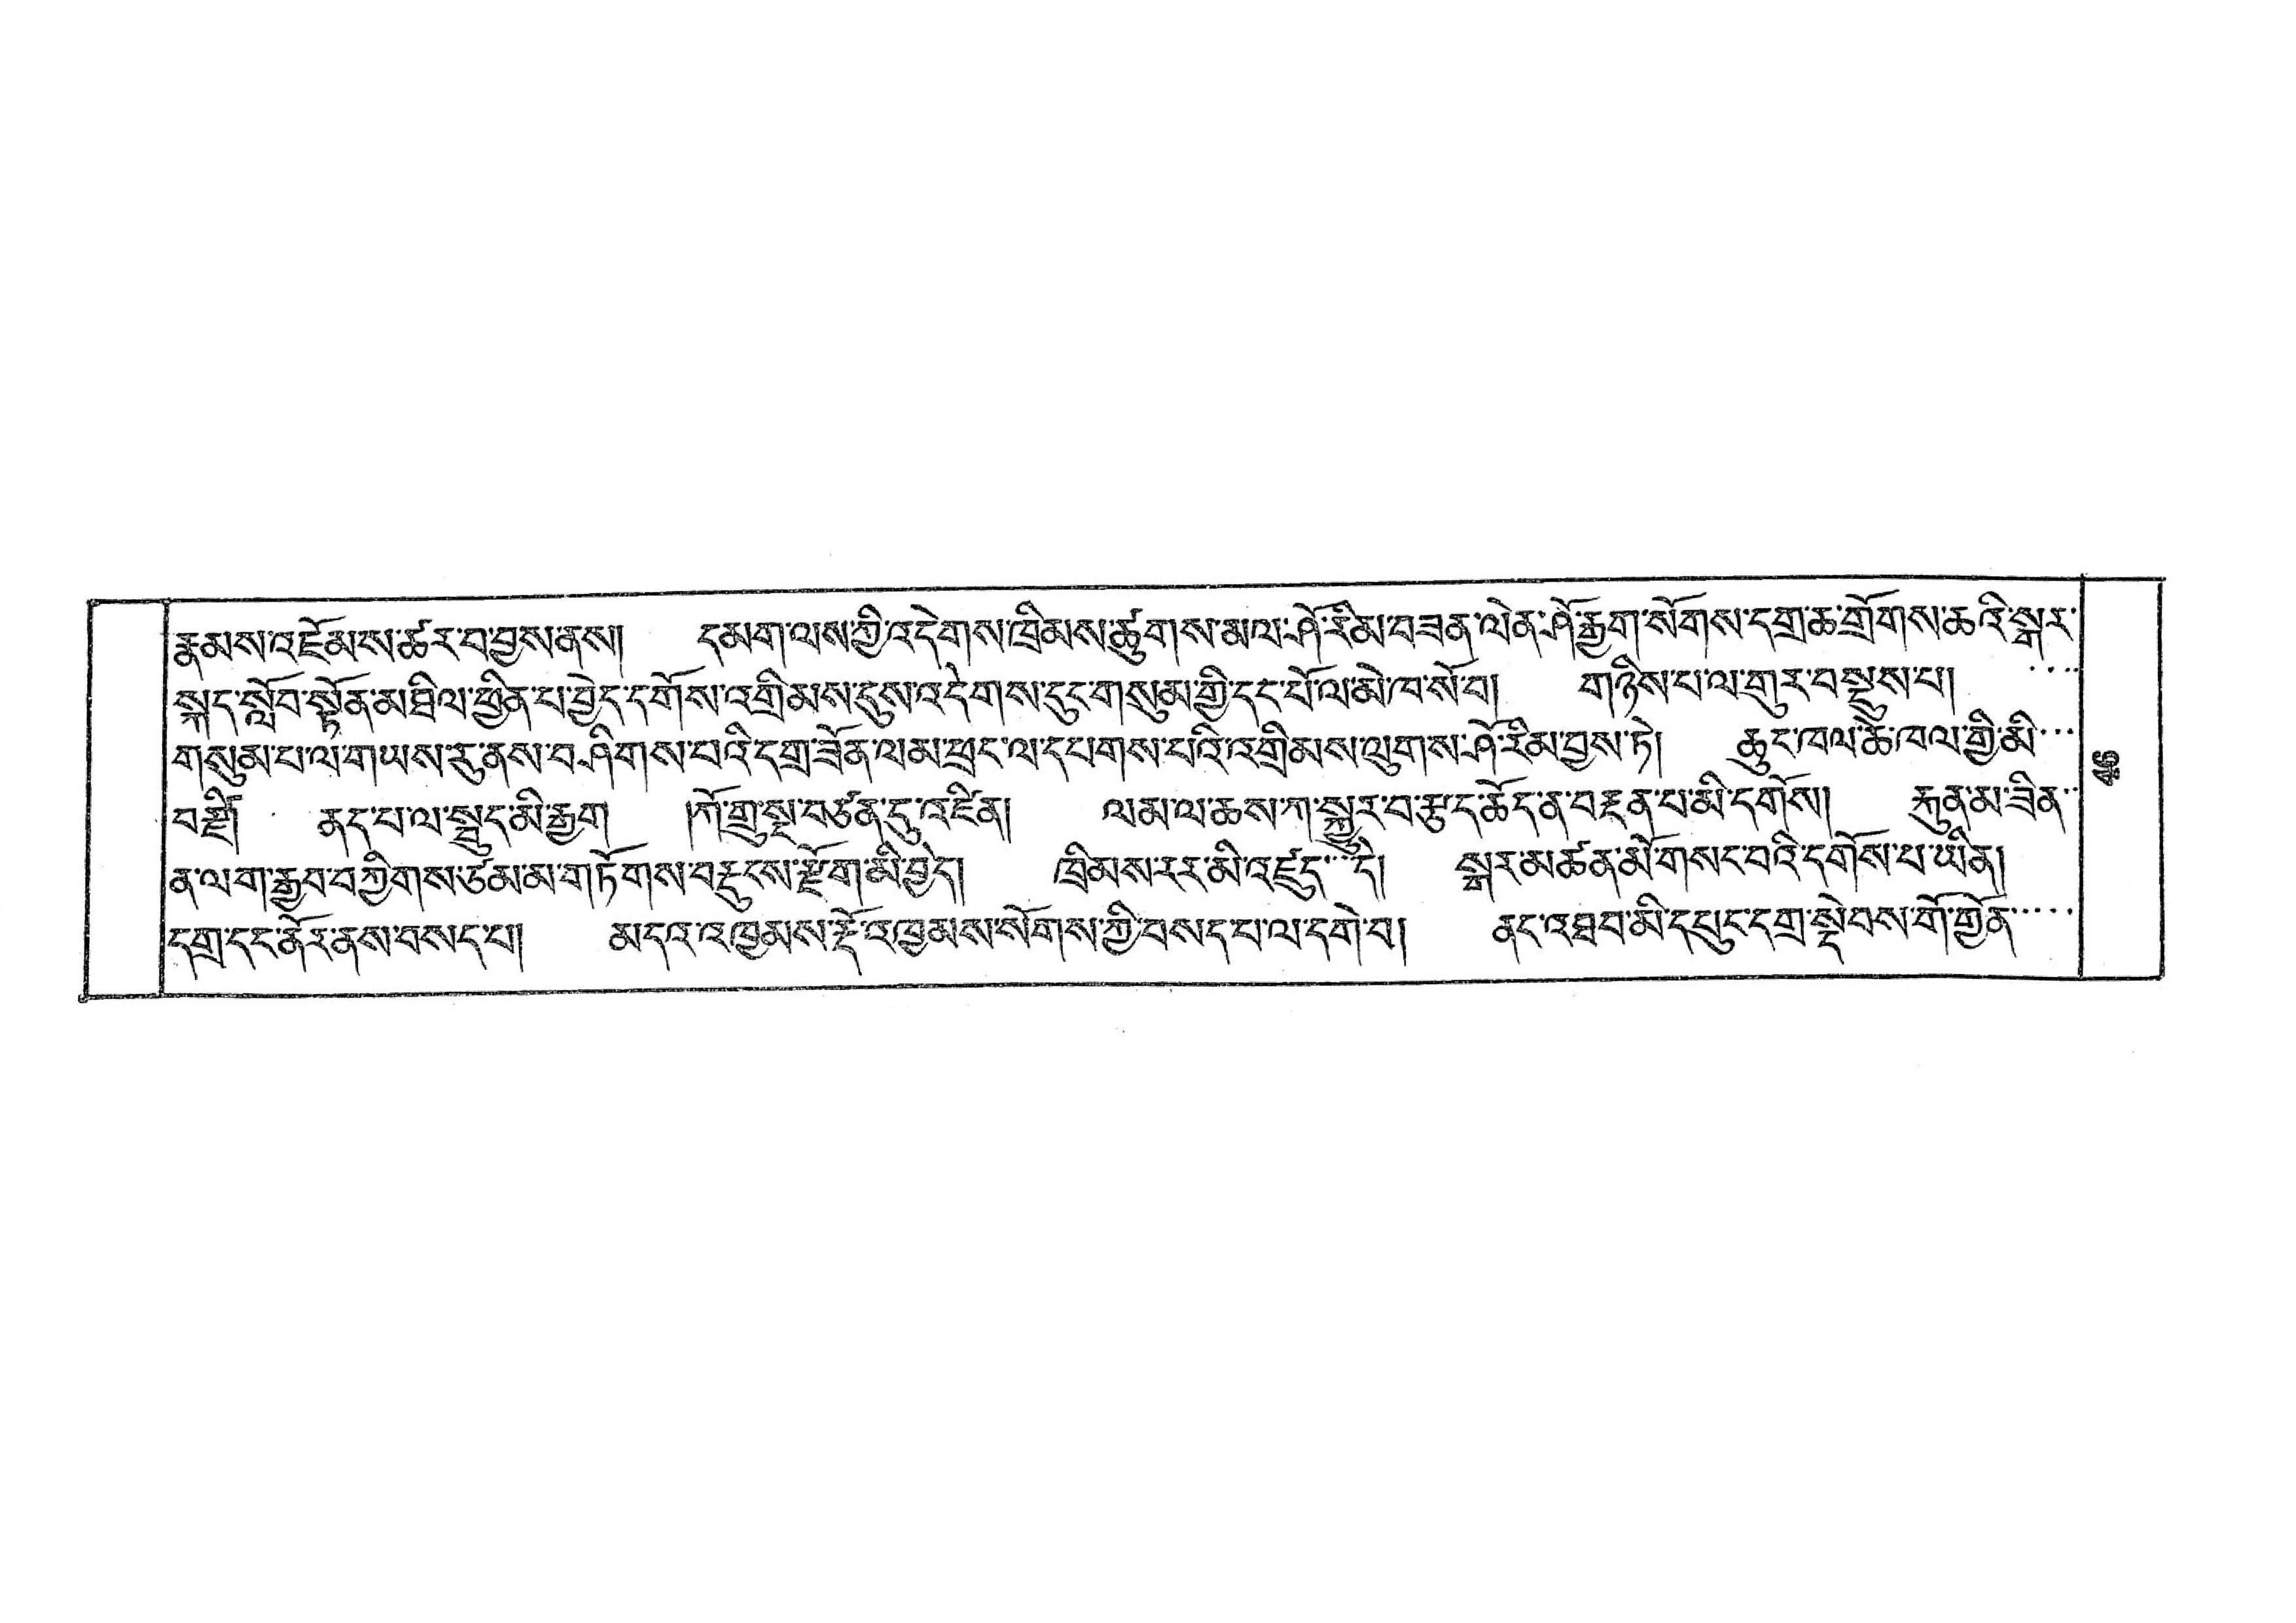རྣམས་འཇོམས་ཚར་བ་བྱས་ནས། དམག་ལས་ཀྱི་འདེགས་ཁྲིམས་ཚུགས་མལ་སོ་རིམ་བཟན་ལེན་ཤོ་རྒྱག་སོགས་དགྲ་ཆ་གྲོགས་ཆའི་སྒར་
སྐད་སློབ་སྟོན་མཐིལ་ཕྱིན་བྱེད་དགོས་འགྲིམས་དུས་འདེགས་དུང་གསུམ་གྱི་དང་པོ་ལ་མེ་ཁ་སོ་བ། གཉིས་པ་ལ་གུར་བསྡུས་པ། ་་་་
གསུམ་པ་ལ་གཡས་རུ་ནས་བཤིགས་པའི་དགྲ་ཟོན་ལམ་ཕྲང་ལ་དཔགས་པའི་འགྲིམས་ལུགས་ཤོ་རིམ་བྱས་ཏེ། ཆུང་ཁལ་ཆེ་ཁལ་གྱི་མི་་་
བརྗི། ནད་པ་ལ་སྦུད་མི་རྒྱག །ཀོ་གྲུ་སྔ་བཙན་དུ་འཛིན། ལམ་ལ་ཆས་ཀ་སྐྱུར་བ་རྩད་ཆོད་ན་བརྔན་པ་མི་དགོས། རྐུན་མ་ཟིན་་
ན་ལག་རྒྱབ་བཀྱིགས་ཙམ་མ་གཏོགས་བརྡུངས་རྫོག་མི་བྱེད། ཁྲིམས་རར་མི་འཛུད་་་དེ། སྒར་མཚན་མོ་གསང་བའི་དགོས་པ་ཡིན།
དགྲ་དང་ནོར་ནས་བསད་པ། མདའ་འཁྱམས་རྡོ་འཁྱམས་སོགས་ཀྱི་བསད་པ་ལ་དགེ་བ། ནང་འཐབ་མི་དཔུང་དགྲ་སྡེབས་གོ་གྱོན་་་་
